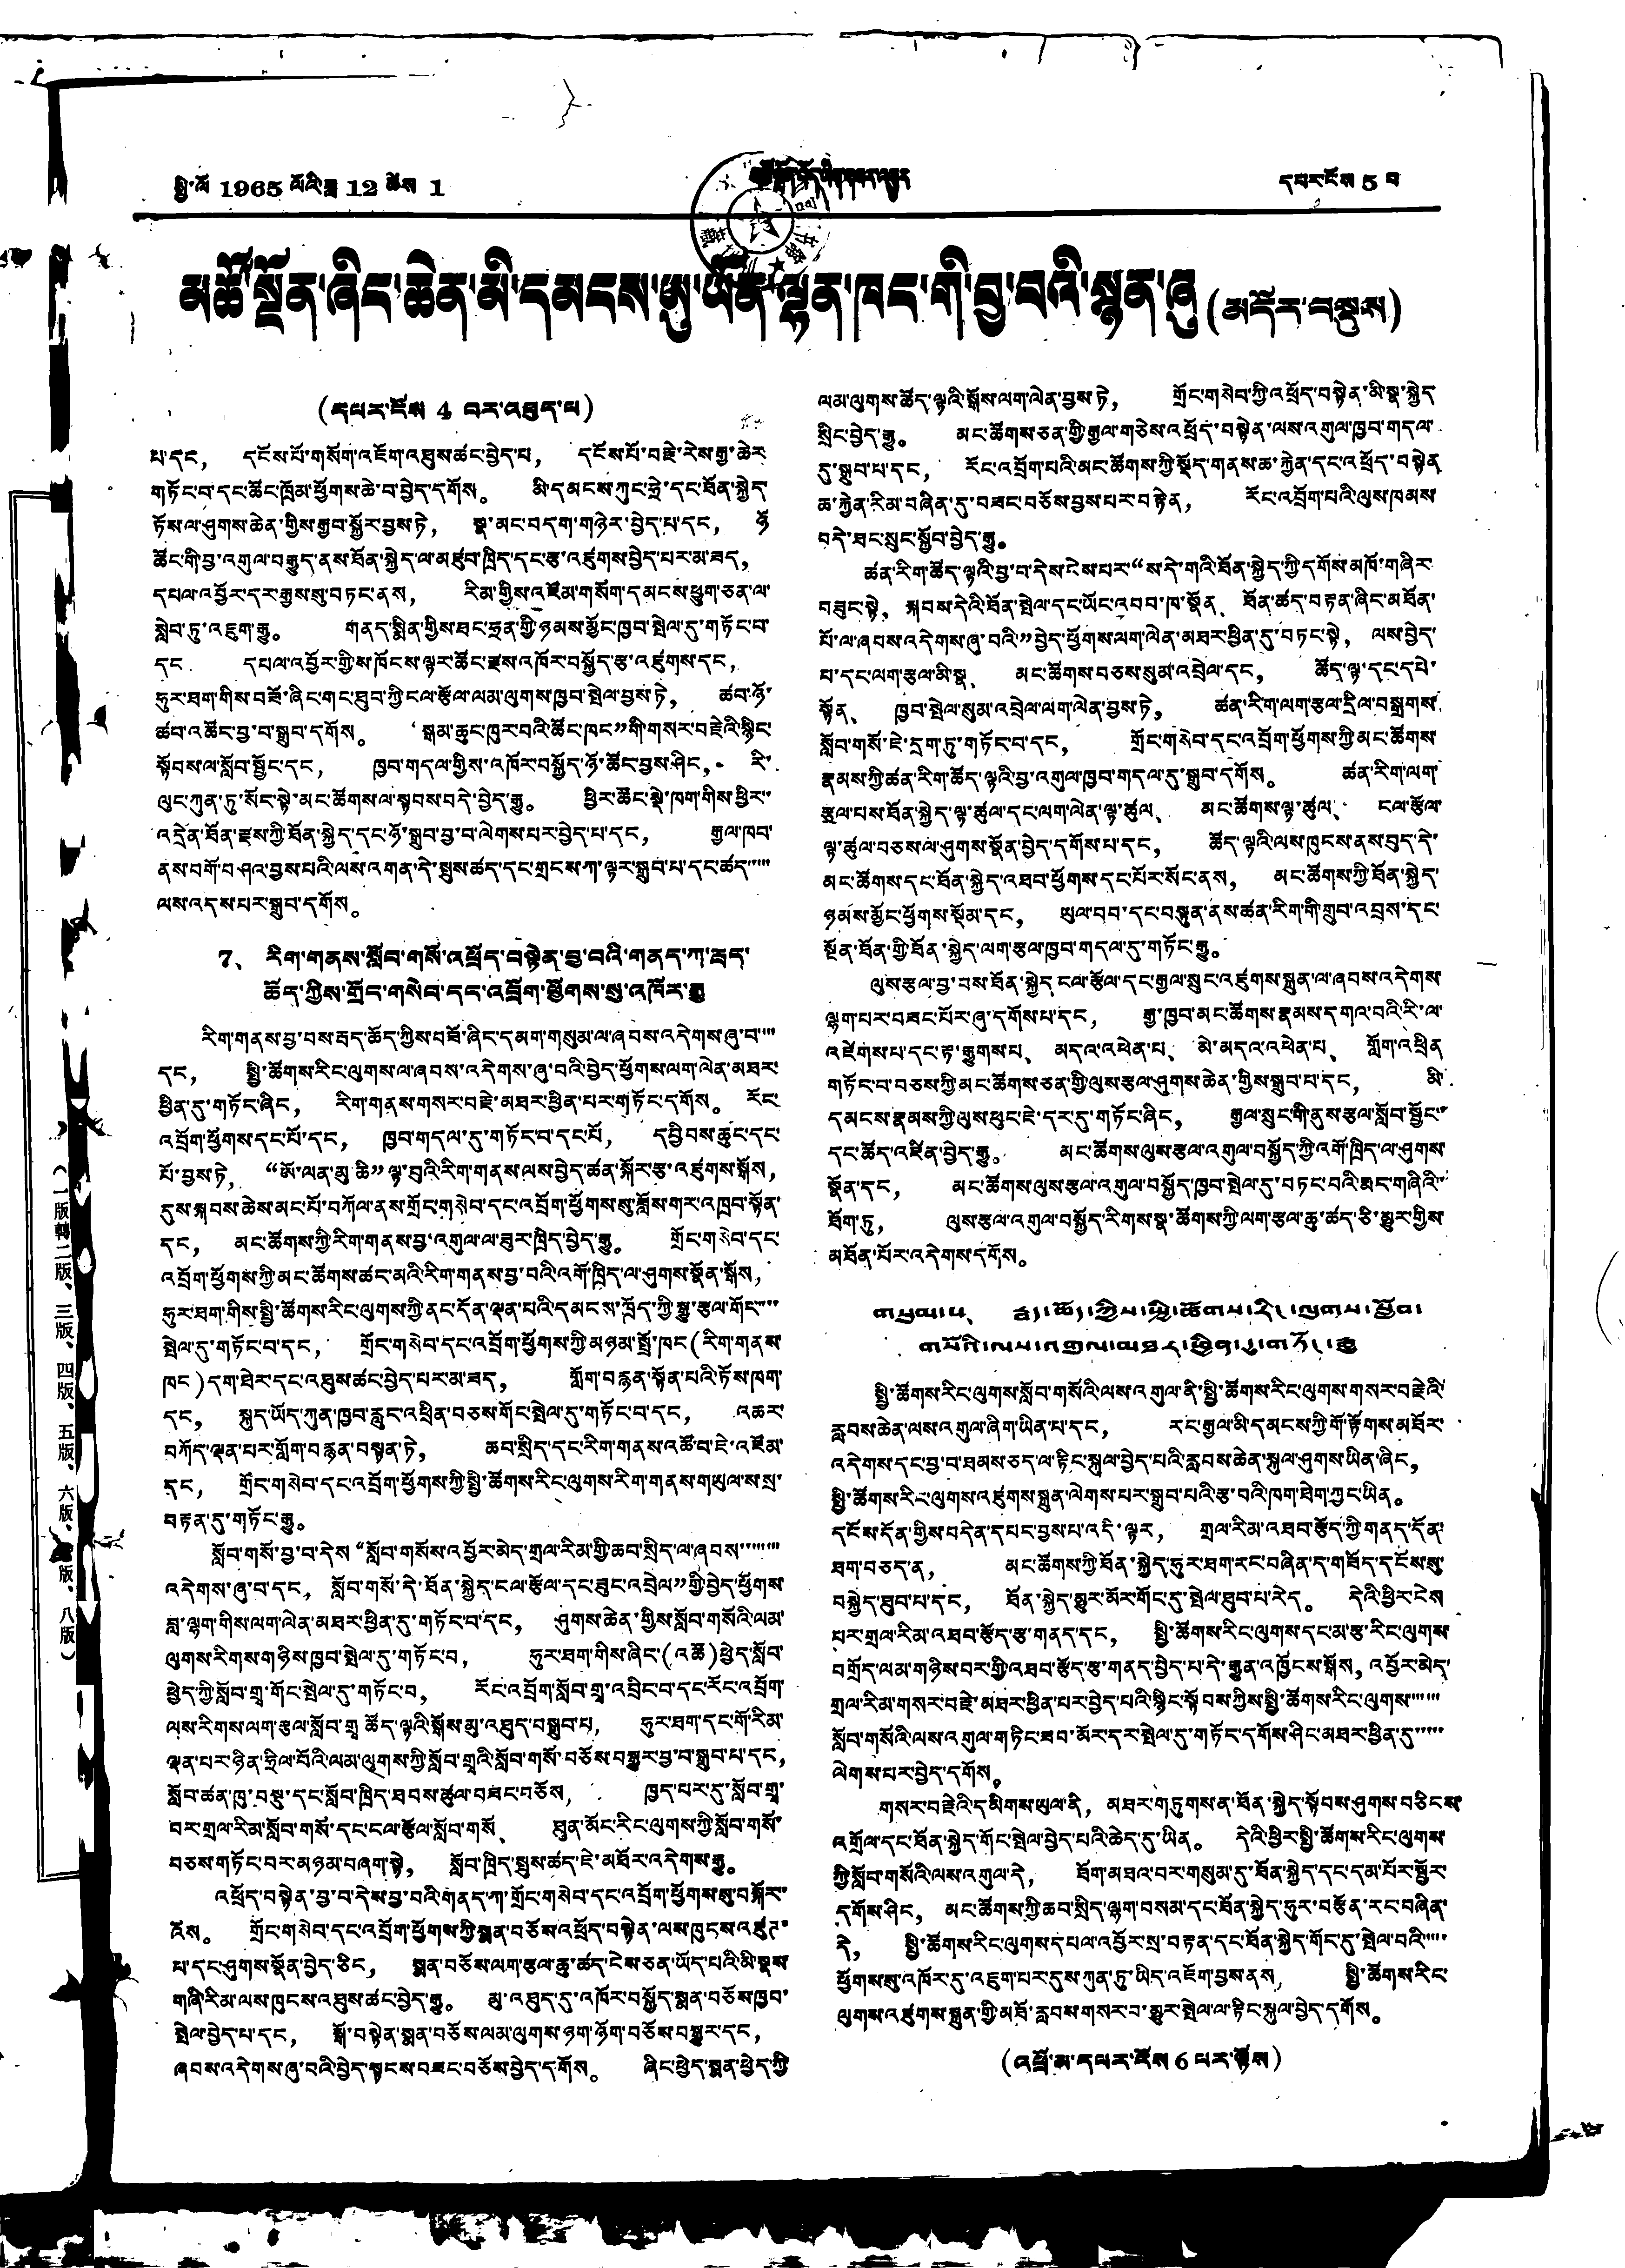（一版轉二版、三版、四版、五版、六版、七版、八版）
སྤྱི་ལོ 1965 ལོའི་ཟླ་ 12 ཚེས 1 མཚོ་སྔོན་བོད་ཡིག་གསར་འགྱུར དཔར་ངོས 5 པ
མཚོ་སྔོན་ཞིང་ཆེན་མི་དམངས་ཨུ་ཡོན་ལྷན་ཁང་གི་བྱ་བའི་སྙན་ཞུ(མདོར་བསྡུས)
(དཔར་ངོས 4 བར་འཐུད་ལ)
པ་དང， དངོས་པོ་གསོག་འཇོག་འཐུས་ཚང་བྱེད་པ， དངོས་པོ་བརྗེ་རེས་རྒྱ་ཆེར
གཏོང་བ་དང་ཚོང་ཁྲོམ་ཕྱོགས་ཆེ་བ་བྱེད་དགོས。 མི་དམངས་ཀུང་ཧྲེ་དང་ཐོན་སྐྱེད་
ཏོས་ལ་ཤུགས་ཆེན་གྱིས་རྒྱབ་སྐྱོར་བྱས་ཏེ， སྣ་མང་བདག་གཉེར་བྱེད་པ་དང， ཉོ་
ཚོང་གི་བྱ་འགུལ་བརྒྱུད་ནས་ཐོན་སྐྱེད་ལ་མཛུབ་ཁྲིད་དང་རྩ་འཛུགས་བྱེད་པར་མ་ཟད，
དཔལ་འབྱོར་དར་རྒྱས་སུ་བཏང་ནས， རིམ་གྱིས་འཛོམ་གསོག་དམངས་ཕྱུག་ཅན་ལ་
སླེབ་ཏུ་འཇུག་རྒྱུ。 གནད་སྨིན་གྱིས་ཐང་ཧྲན་གྱི་ཉམས་མྱོང་ཁྱབ་སྤེལ་དུ་གཏོང་བ་
དང， དཔལ་འབྱོར་གྱི་ས་ཁོངས་ལྟར་ཚོང་རྫས་འཁོར་བསྐྱོད་རྩ་འཛུགས་དང，
ཧུར་ཐག་གིས་བཟོ་ཞིང་གང་ཐུབ་ཀྱི་ངལ་རྩོལ་ལམ་ལུགས་ཁྱབ་སྤེལ་བྱས་ཏེ， ཚབ་ཉོ་
ཚབ་འཚོང་བྱ་བ་སྒྲུབ་དགོས。 “སྒམ་ཆུང་ཁུར་བའི་ཚོང་ཁང”གི་གསར་བརྗེའི་སྙིང་
སྟོབས་ལ་སློབ་སྦྱོང་དང， ཁྱབ་གདལ་གྱིས་འཁོར་བསྐྱོད་ཉོ་ཚོང་བྱས་ཤིང， རི་
ལུང་ཀུན་ཏུ་སོང་སྟེ་མང་ཚོགས་ལ་སྟབས་བདེ་བྱེད་རྒྱུ。 ཕྱིར་ཚོང་སྡེ་ཁག་གིས་ཕྱིར་་
འདྲེན་ཐོན་རྫས་ཀྱི་ཐོན་སྐྱེད་དང་ཉོ་སྒྲུབ་བྱ་བ་ལེགས་པར་བྱེད་པ་དང， རྒྱལ་ཁབ་
ནས་བགོ་བཤའ་བྱས་པའི་ལས་འགན་དེ་སྤུས་ཚད་དང་གྲངས་ཀ་ལྟར་སྒྲུབ་པ་དང་ཚད་་་་་
ལས་འདས་པར་སྒྲུབ་དགོས。
7、 རིག་གནས་སློབ་གསོ་འཕྲོད་བསྟེན་བྱ་བའི་གནད་ཀ་རྦད་
ཆོད་ཀྱིས་གྲོང་གསེལ་དང་འབྲོག་ཕྱོགས་སུ་འཁོར་རྒྱུ
རིག་གནས་བྱ་བས་རྦད་ཆོད་ཀྱིས་བཟོ་ཞིང་དམག་གསུམ་ལ་ཞབས་འདེགས་ཞུ་བ་་་་
དང， སྤྱི་ཚོགས་རིང་ལུགས་ལ་ཞབས་འདེགས་ཞུ་བའི་བྱེད་ཕྱོགས་ལག་ལེན་མཐར་
ཕྱིན་དུ་གཏོང་ཞིང，  རིག་གནས་གསར་བརྗེ་མཐར་ཕྱིན་པར་གཏོང་དགོས。 རོང་
འབྲོག་ཕྱོགས་དང་པོ་དང， ཁྱབ་གདལ་དུ་གཏོང་བ་དང་པོ， དབྱིབས་ཆུང་དང་
པོ་བྱས་ཏེ， “ཨོ་ལན་མུ་ཆི” ལྟ་བུའི་རིག་གནས་ལས་བྱེད་ཚན་སྐོར་རྩ་འཛུགས་སྒོས，
དུས་སྐབས་ཆེས་མང་པོ་བཀོལ་ནས་གྲོང་གསེབ་དང་འབྲོག་ཕྱོགས་སུ་ཟློས་གར་འཁྲབ་སྟོན་
དང， མང་ཚོགས་ཀྱི་རིག་གནས་བྱ་འགུལ་ལ་ཟུར་ཁྲིད་བྱེད་རྒྱུ。 གྲོང་གསེབ་དང་
འབྲོག་ཕྱོགས་ཀྱི་མང་ཚོགས་ཚང་མའི་རིག་གནས་བྱ་བའི་འགོ་ཁྲིད་ལ་ཤུགས་སྣོན་སྒོས，
ཧུར་ཐག་གིས་སྤྱི་ཚོགས་རིང་ལུགས་ཀྱི་ནང་དོན་ལྡན་པའི་དམངས་ཁྲོད་ཀྱི་སྒྱུ་རྩལ་གོང་་་་
སྤེལ་དུ་གཏོང་བ་དང， གྲོང་གསེབ་དང་འབྲོག་ཕྱོགས་ཀྱི་མཉམ་སྤྲོ་ཁང (རིག་གནས་
ཁང)དག་ཐེར་དང་འཐུས་ཚང་བྱེད་པར་མ་ཟད， གློག་བརྙན་སྟོན་པའི་ཏོས་ཁག་
དང， སྐུད་ཡོད་ཀུན་ཁྱབ་རླུང་འཕྲིན་བཅས་གོང་སྤེལ་དུ་གཏོང་བ་དང， འཆར་
བཀོད་ལྡན་པར་གློག་བརྙན་བསྟན་ཏེ， ཆབ་སྲིད་དང་རིག་གནས་འཚོ་བ་ཇེ་འཛོམ་
དང， གྲོང་གསེབ་དང་འབྲོག་ཕྱོགས་ཀྱི་སྤྱི་ཚོགས་རིང་ལུགས་རིག་གནས་གཡུལ་ས་སྲ་
བརྟན་དུ་གཏོང་རྒྱུ。
སློབ་གསོ་བྱ་བ་དེས“སློབ་གསོས་འབྱོར་མེད་གྲལ་རིམ་གྱི་ཆབ་སྲིད་ལ་ཞབས་་་་་་་་
འདེགས་ཞུ་བ་དང， སློབ་གསོ་དེ་ཐོན་སྐྱེད་ངལ་རྩོལ་དང་ཟུང་འབྲེལ”གྱི་བྱེད་ཕྱོགས་
བླ་ལྷག་གིས་ལག་ལེན་མཐར་ཕྱིན་དུ་གཏོང་བ་དང， ཤུགས་ཆེན་གྱིས་སློབ་གསོའི་ལམ་
ལུགས་རིགས་གཉིས་ཁྱབ་སྤེལ་དུ་གཏོང་བ， ཧུར་ཐག་གིས་ཞིང་(འཚོ)ཕྱེད་སློབ་
ཕྱེད་ཀྱི་སློབ་གྲྭ་གོང་སྤེལ་དུ་གཏོང་བ， རོང་འབྲོག་སློབ་གྲྭ་འབྲིང་བ་དང་རོང་འབྲོག་
ལས་རིགས་ལག་རྩལ་སློབ་གྲྭ ཚོད་ལྟའི་སྒོས་མུ་འཐུད་བསྒྲུབ་པ， ཧུར་ཐག་དང་གོ་རིམ་
ལྡན་པར་ཉིན་ཧྲིལ་བོའི་ལམ་ལུགས་ཀྱི་སློབ་གྲྭའི་སློབ་གསོ་བཅོས་བསྒྱུར་བྱ་བ་སྒྲུབ་པ་དང，
སློབ་ཚན་ཁུ་བསྡུ་དང་སློབ་ཁྲིད་ཐབས་ཚུལ་བཟང་བཅོས， ཁྱད་པར་དུ་སློབ་གྲྭ་
བར་གྲལ་རིམ་སློབ་གསོ་དང་ངལ་རྩོལ་སློབ་གསོ、 ཐུན་མོང་རིང་ལུགས་ཀྱི་སློབ་གསོ་
བཅས་གཏོང་བར་མཉམ་བཞག་སྟེ， སློབ་ཁྲིད་སྤུས་ཚད་ཇེ་མཐོར་འདེགས་རྒྱུ。
འཕྲོད་བསྟེན་བྱ་བ་དེས་བྱ་བའི་གནད་ཀ་གྲོང་གསེབ་དང་འབྲོག་ཕྱོགས་སུ་བསྐོར་་
འོས。 གྲོང་གསེབ་དང་འབྲོག་ཕྱོགས་ཀྱི་སྨན་བཅོས་འཕྲོད་བསྟེན་ལས་ཁུངས་འཛུཊ་
པ་དང་ཤུགས་སྣོན་བྱེད་ཅིང， སྨན་བཅོས་ལག་རྩལ་ཆུ་ཚད་ངེས་ཅན་ཡོད་པའི་མི་སྣས་
གཞི་རིམ་ལས་ཁུངས་འཐུས་ཚང་བྱེད་རྒྱུ。 མུ་འཐུད་དུ་འཁོར་བསྐྱོད་སྨན་བཅོས་ཁྱབ་
སྤེལ་བྱེད་པ་དང， སྒོ་བསྟེན་སྨན་བཅོས་ལམ་ལུགས་ཉག་ཉོག་བཅོས་བསྒྱུར་དང，
ཞབས་འདེགས་ཞུ་བའི་བྱེད་སྟངས་བཟང་བཅོས་བྱེད་དགོས。 ཞིང་ཕྱེད་སྨན་ཕྱེད་ཀྱི་
ལམ་ལུགས་ཚོད་ལྟའི་སྒོས་ལག་ལེན་བྱས་ཏེ， གྲོང་གསེབ་ཀྱི་འཕྲོད་བསྟེན་མི་སྣ་སྐྱེད
སྲིང་བྱེད་རྒྱུ。 མང་ཚོགས་ཅན་གྱི་རྒྱལ་གཅེས་འཕྲོད་བསྟེན་ལས་འགུལ་ཁྱབ་གདལ་
དུ་སྒྲུབ་པ་དང， རོང་འབྲོག་པའི་མང་ཚོགས་ཀྱི་སྡོད་གནས་ཆ་རྐྱེན་དང་འཕྲོད་བསྟེན་
ཆ་རྐྱེན་རིམ་བཞིན་དུ་བཟང་བཅོས་བྱས་པར་བརྟེན， རོང་འབྲོག་པའི་ལུས་ཁམས་
བདེ་ཐང་སྲུང་སྐྱོབ་བྱེད་རྒྱུ。
ཚན་རིག་ཚོད་ལྟའི་བྱ་བ་དེས་ངེས་པར“ས་དེ་གའི་ཐོན་སྐྱེད་ཀྱི་དགོས་མཁོ་གཞིར་
བཟུང་སྟེ， སྐབས་དེའི་ཐོན་སྤེལ་དང་ཡོང་འབབ་ཁ་སྣོན、 ཐོན་ཚད་བརྟན་ཞིང་མཐོན་
པོ་ལ་ཞབས་འདེགས་ཞུ་བའི་”བྱེད་ཕྱོགས་ལག་ལེན་མཐར་ཕྱིན་དུ་བཏང་སྟེ， ལས་བྱེད་
པ་དང་ལག་རྩལ་མི་སྣ、 མང་ཚོགས་བཅས་སུམ་འབྲེལ་དང， ཚོད་ལྟ་དང་དཔེ་
སྟོན、 ཁྱབ་སྤེལ་སུམ་འབྲེལ་ལག་ལེན་བྱས་ཏེ， ཚན་རིག་ལག་རྩལ་དྲིལ་བསྒྲགས་
སློབ་གསོ་ཇེ་དྲག་ཏུ་གཏོང་བ་དང， གྲོང་གསེབ་དང་འབྲོག་ཕྱོགས་ཀྱི་མང་ཚོགས་
རྣམས་ཀྱི་ཚན་རིག་ཚོད་ལྟའི་བྱ་འགུལ་ཁྱབ་གདལ་དུ་སྒྲུབ་དགོས。 ཚན་རིག་ལག་
རྩལ་པས་ཐོན་སྐྱེད་ལྟ་ཚུལ་དང་ལག་ལེན་ལྟ་ཚུལ、 མང་ཚོགས་ལྟ་ཚུལ、 ངལ་རྩོལ་
ལྟ་ཚུལ་བཅས་ལ་ཤུགས་སྣོན་བྱེད་དགོས་པ་དང， ཚོད་ལྟའི་ལས་ཁུངས་ནས་བུད་དེ་
མང་ཚོགས་དང་ཐོན་སྐྱེད་འཐབ་ཕྱོགས་དང་པོར་སོང་ནས， མང་ཚོགས་ཀྱི་ཐོན་སྐྱེད་
ཉམས་མྱོང་ཕྱོགས་སྡོམ་དང， ཡུལ་བབ་དང་བསྟུན་ནས་ཚན་རིག་གི་གྲུབ་འབྲས་དང་
སྔོན་ཐོན་གྱི་ཐོན་སྐྱེད་ལག་རྩལ་ཁྱབ་གདལ་དུ་གཏོང་རྒྱུ。
ལུས་རྩལ་བྱ་བས་ཐོན་སྐྱེད ངལ་རྩོལ་དང་རྒྱལ་སྲུང་འཛུགས་སྐྲུན་ལ་ཞབས་འདེགས་
ལྷག་པར་བཟང་པོར་ཞུ་དགོས་པ་དང， རྒྱ་ཁྱབ་མང་ཚོགས་རྣམས་དགའ་བའི་རི་ལ་
འཛེགས་པ་དང་རྟ་རྒྱུགས་པ、 མདའ་འཕེན་པ、 མེ་མདའ་འཕེན་པ、 གློག་འཕྲིན
གཏོང་བ་བཅས་ཀྱི་མང་ཚོགས་ཅན་གྱི་ལུས་རྩལ་ཤུགས་ཆེན་གྱིས་སྒྲུབ་པ་དང， མི་
དམངས་རྣམས་ཀྱི་ལུས་ཕུང་ཇེ་དར་དུ་གཏོང་ཞིང， རྒྱལ་སྲུང་གི་ནུས་རྩལ་སློབ་སྦྱོང་་
དང་ཚོད་འཛིན་བྱེད་རྒྱུ。 མང་ཚོགས་ལུས་རྩལ་འགུལ་བསྐྱོད་ཀྱི་འགོ་ཁྲིད་ལ་ཤུགས་
སྣོན་དང， མང་ཚོགས་ལུས་རྩལ་འགུལ་བསྐྱོད་ཁྱབ་སྤེལ་དུ་བཏང་བའི་རྨང་གཞིའི་་་
ཐོག་ཏུ， ལུས་རྩལ་འགུལ་བསྐྱོད་རིགས་སྣ་ཚོགས་ཀྱི་ལག་རྩལ་ཆུ་ཚད་ཅི་མྱུར་གྱིས་
མཐོན་པོར་འདེགས་དགོས。
གསུམ་པ、 རྦད་ཆོད་ཀྱིས་སྤྱི་ཚོགས་རི་ལུགས་སློབ་
གསོའི་ལས་འགྲལ་མཐར་ཕྱིན་ཏུ་གཏོང་རྒྱུ
སྤྱི་ཚོགས་རིང་ལུགས་སློབ་གསོའི་ལས་འགུལ་ནི་སྤྱི་ཚོགས་རིང་ལུགས་གསར་བརྗེའི་
རླབས་ཆེན་ལས་འགུལ་ཞིག་ཡིན་པ་དང， རང་རྒྱལ་མི་དམངས་ཀྱི་གོ་རྟོགས་མཐོར་
འདེགས་དང་བྱ་བ་ཐམས་ཅད་ལ་རྟིང་སྐུལ་བྱེད་པའི་རླབས་ཆེན་སྐུལ་ཤུགས་ཡིན་ཞིང，
སྤྱི་ཚོགས་རིང་ལུགས་འཛུགས་སྐྲུན་ལེགས་པར་སྒྲུབ་པའི་རྩ་བའི་ཁག་ཐེག་ཀྱང་ཡིན。
དངོས་དོན་གྱིས་བདེན་དཔང་བྱས་པ་འདི་ལྟར， གྲལ་རིམ་འཐབ་རྩོད་ཀྱི་གནད་དོན་
ཐག་བཅད་ན， མང་ཚོགས་ཀྱི་ཐོན་སྐྱེད་ཧུར་ཐག་རང་བཞིན་དུ་གཟོད་དངོས་སུ་
བསྐྱེད་ཐུབ་པ་དང， ཐོན་སྐྱེད་མྱུར་མོར་གོང་དུ་སྤེལ་ཐུབ་པ་རེད。 དེའི་ཕྱིར་ངེས་
པར་གྲལ་རིམ་འཐབ་རྩོད་རྩ་གནད་དང， སྤྱི་ཚོགས་རིང་ལུགས་དང་མ་རྩ་རིང་ལུགས་
བགྲོད་ལམ་གཉིས་བར་གྱི་འཐབ་རྩོད་རྩ་གནད་བྱེད་པ་དེ་རྒྱུན་འཁྱོངས་སྒོས， འབྱོར་མེད་
གྲལ་རིམ་གསར་བརྗེ་མཐར་ཕྱིན་པར་བྱེད་པའི་སྙིང་སྟོབས་ཀྱིས་སྤྱི་ཚོགས་རིང་ལུགས་་་་་་་
སློབ་གསོའི་ལས་འགུལ་གཏིང་ཟབ་མོར་དར་སྤེལ་དུ་གཏོང་དགོས་ཤིང་མཐར་ཕྱིན་དུ་་་་་་
ལེགས་པར་བྱེད་དགོས。
གསར་བརྗེའི་དམིགས་ཡུལ་ནི， མཐར་གཏུགས་ན་ཐོན་སྐྱེད་སྟོབས་ཤུགས་བཅིངས་
འགྲོལ་དང་ཐོན་སྐྱེད་གོང་སྤེལ་བྱེད་པའི་ཆེད་དུ་ཡིན。 དེའི་ཕྱིར་སྤྱི་ཚོགས་རིང་ལུགས་
ཀྱི་སློབ་གསོའི་ལས་འགུལ་དེ， ཐོག་མཐའ་བར་གསུམ་དུ་ཐོན་སྐྱེད་དང་དམ་པོར་སྦྱོར་
དགོས་ཤིང， མང་ཚོགས་ཀྱི་ཆབ་སྲིད་ལྷག་བསམ་དང་ཐོན་སྐྱེད་ཧུར་བརྩོན་རང་བཞིན་
དེ， སྤྱི་ཚོགས་རིང་ལུགས་དཔལ་འབྱོར་སྲ་བརྟན་དང་ཐོན་སྐྱེད་གོང་དུ་སྤེལ་བའི་་་་་
ཕྱོགས་སུ་འཁོར་དུ་འཇུག་པར་དུས་ཀུན་ཏུ་ཡིད་འཇོག་བྱས་ནས， སྤྱི་ཚོགས་རིང་
ལུགས་འཛུགས་སྐྲུན་གྱི་མཐོ་རླབས་གསར་བ་མྱུར་སྤེལ་ལ་རྟིང་སྐུལ་བྱེད་དགོས。
(འཕྲོ་མ་དཔར་རོས 6 པར་ལྟོས)
